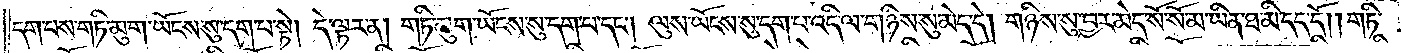དག་པས་གཏི་མུག་ཡོངས་སུ་དག་པ་སྟེ། དེ་ལྟར་ན། གཏི་མུག་ཡོངས་སུ་དག་པ་དང༌། ལུས་ཡོངས་སུ་དག་པ་འདི་ལ་གཉིས་སུ་མེད་དེ། གཉིས་སུ་བྱར་མེད་སོ་སོ་མ་ཡིན་ཐ་མི་དད་དོ། །གཏི་
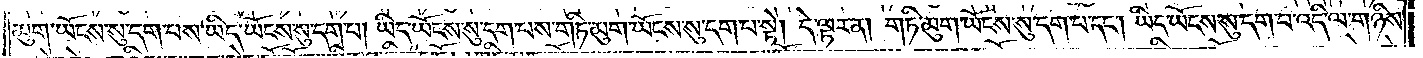མུག་ཡོངས་སུ་དག་པས་ཡིད་ཡོངས་སུ་དག་པ། ཡིད་ཡོངས་སུ་དག་པས་གཏི་མུག་ཡོངས་སུ་དག་པ་སྟེ། དེ་ལྟར་ན། གཏི་མུག་ཡོངས་སུ་དག་པ་དང༌། ཡིད་ཡོངས་སུ་དག་པ་འདི་ལ་གཉིས་
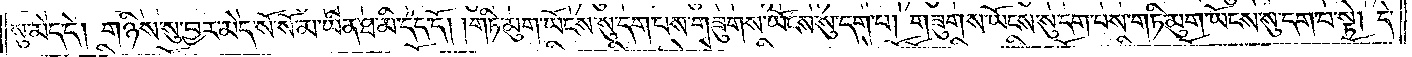སུ་མེད་དེ། གཉིས་སུ་བྱར་མེད་སོ་སོ་མ་ཡིན་ཐ་མི་དད་དོ། །གཏི་མུག་ཡོངས་སུ་དག་པས་གཟུགས་ཡོངས་སུ་དག་པ། གཟུགས་ཡོངས་སུ་དག་པས་གཏི་མུག་ཡོངས་སུ་དག་པ་སྟེ། དེ་
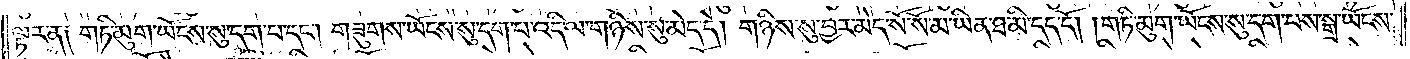ལྟར་ན༑ གཏི་མུག་ཡོངས་སུ་དག་པ་དང༌། གཟུགས་ཡོངས་སུ་དག་པ་འདི་ལ་གཉིས་སུ་མེད་དེ། གཉིས་སུ་བྱར་མེད་སོ་སོ་མ་ཡིན་ཐ་མི་དད་དོ། ། གཏི་མུག་ཡོངས་སུ་དག་པས་སྒྲ་ཡོངས་
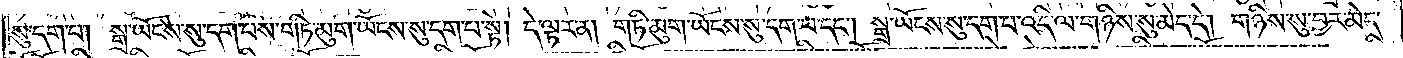སུ་དག་པ། སྒྲ་ཡོངས་སུ་དག་པས་གཏི་མུག་ཡོངས་སུ་དག་པ་སྟེ། དེ་ལྟར་ན། གཏི་མུག་ཡོངས་སུ་དག་པ་དང༌། སྒྲ་ཡོངས་སུ་དག་པ་འདི་ལ་གཉིས་སུ་མེད་དེ། གཉིས་སུ་བྱར་མེད་
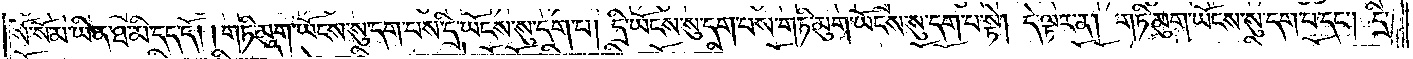སོ་སོ་མ་ཡིན་ཐ་མི་དད་དོ། །གཏི་མུག་ཡོངས་སུ་དག་པས་དྲི་ཡོངས་སུ་དག་པ། དྲི་ཡོངས་སུ་དག་པས་གཏི་མུག་ཡོངས་སུ་དག་པ་སྟེ། དེ་ལྟར་ན། གཏི་མུག་ཡོངས་སུ་དག་པ་དང༌། དྲི་
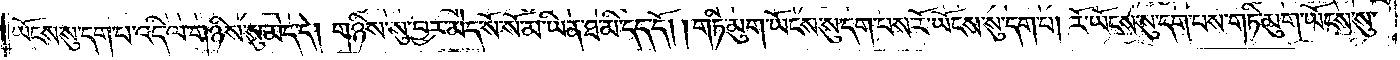ཡོངས་སུ་དག་པ་འདི་ལ་གཉིས་སུ་མེད་དེ། གཉིས་སུ་བྱར་མེད་སོ་སོ་མ་ཡིན་ཐ་མི་དད་དོ། །གཏི་མུག་ཡོངས་སུ་དག་པས་རོ་ཡོངས་སུ་དག་པ། རོ་ཡོངས་སུ་དག་པས་གཏི་མུག་ཡོངས་སུ་
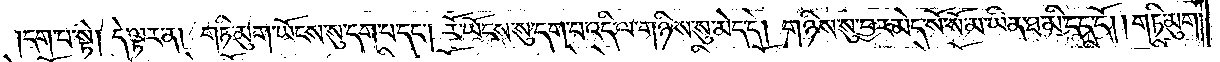དག་པ་སྟེ། དེ་ལྟར་ན། གཏི་མུག་ཡོངས་སུ་དག་པ་དང༌། རོ་ཡོངས་སུ་དག་པས་འདི་ལ་གཉིས་སུ་མེད་དེ། གཉིས་སུ་བྱར་མེད་སོ་སོ་མ་ཡིན་ཐ་མི་དད་དོ། །གཏི་མུག་
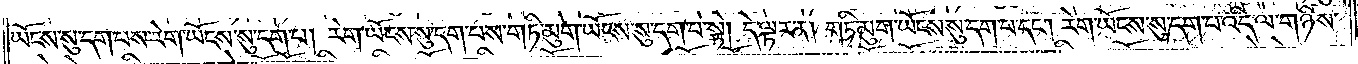ཡོངས་སུ་དག་པས་རེག་ཡོངས་སུ་དག་པ། རེག་ཡོངས་སུ་དག་པས་གཏི་མུག་ཡོངས་སུ་དག་པ་སྟེ། དེ་ལྟར་ན། གཏི་མུག་ཡོངས་སུ་དག་པ་དང༌། རེག་ཡོངས་སུ་དག་པ་འདི་ལ་གཉིས་
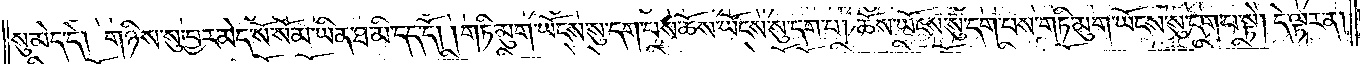སུ་མེད་དེ། གཉིས་སུ་བྱར་མེད་སོ་སོ་མ་ཡིན་ཐ་མི་དད་དོ། །གཏི་མུག་ཡོངས་སུ་དག་པས་ཆོས་ཡོངས་སུ་དག་པ། ཆོས་ཡོངས་སུ་དག་པས་གཏི་མུག་ཡོངས་སུ་དག་པ་སྟེ། དེ་ལྟར་ན།
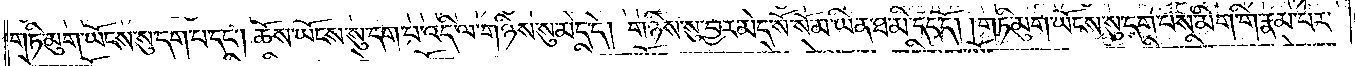གཏི་མུག་ཡོངས་སུ་དག་པ་དང༌། ཆོས་ཡོངས་སུ་དག་པ་འདི་ལ་གཉིས་སུ་མེད་དེ། གཉིས་སུ་བྱར་མེད་སོ་སོ་མ་ཡིན་ཐ་མི་དད་དོ། །གཏི་མུག་ཡོངས་སུ་དག་པས་མིག་གི་རྣམ་པར་
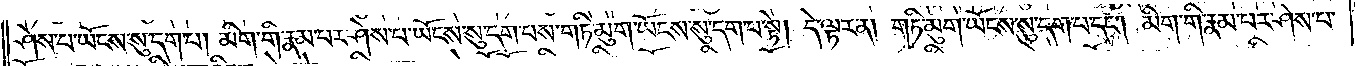ཤེས་པ་ཡོངས་སུ་དག་པ། མིག་གི་རྣམ་པར་ཤེས་པ་ཡོངས་སུ་དག་པས་གཏི་མུག་ཡོངས་སུ་དག་པ་སྟེ། དེ་ལྟར་ན། གཏི་མུག་ཡོངས་སུ་དག་པ་དང༌། མིག་གི་རྣམ་པར་ཤེས་པ་
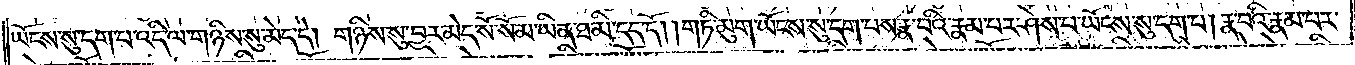ཡོངས་སུ་དག་པ་འདི་ལ་གཉིས་སུ་མེད་དེ། གཉིས་སུ་བྱར་མེད་སོ་སོ་མ་ཡིན་ཐ་མི་དད་དོ། །གཏི་མུག་ཡོངས་སུ་དག་པས་རྣ་བའི་རྣམ་པར་ཤེས་པ་ཡོངས་སུ་དག་པ། རྣ་བའི་རྣམ་པར་
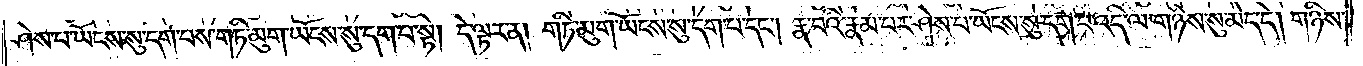ཤེས་པ་ཡོངས་སུ་དག་པས་གཏི་མུག་ཡོངས་སུ་དག་པ་སྟེ། དེ་ལྟར་ན། གཏི་མུག་ཡོངས་སུ་དག་པ་དང༌། རྣམ་བའི་རྣམ་པར་ཤེས་པ་ཡོངས་སུ་དག་པ་འདི་ལ་གཉིས་སུ་མེད་དེ། གཉིས་
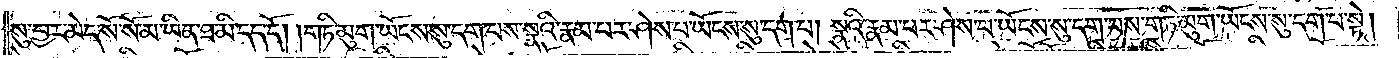སུ་བྱར་མེད་སོ་སོ་མ་ཡིན་ཐ་མི་དད་དོ། །གཏི་མུག་ཡོངས་སུ་དག་པས་སྣའི་རྣམ་པར་ཤེས་པ་ཡོངས་སུ་དག་པ། སྣའི་རྣམ་པར་ཤེས་པ་ཡོངས་སུ་དག་པས་གཏི་མུག་ཡོངས་སུ་དག་པ་སྟེ།
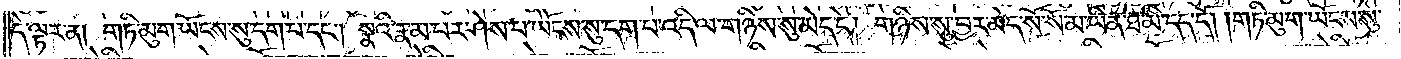དེ་ལྟར་ན། གཏི་མུག་ཡོངས་སུ་དག་པ་དང༌། སྣའི་རྣམ་པར་ཤེས་པ་ཡོངས་སུ་དག་པ་འདི་ལ་གཉིས་སུ་མེད་དེ། གཉིས་སུ་བྱར་མེད་སོ་སོ་མ་ཡིན་ཐ་མི་དད་དོ། །གཏི་མུག་ཡོངས་སུ་
